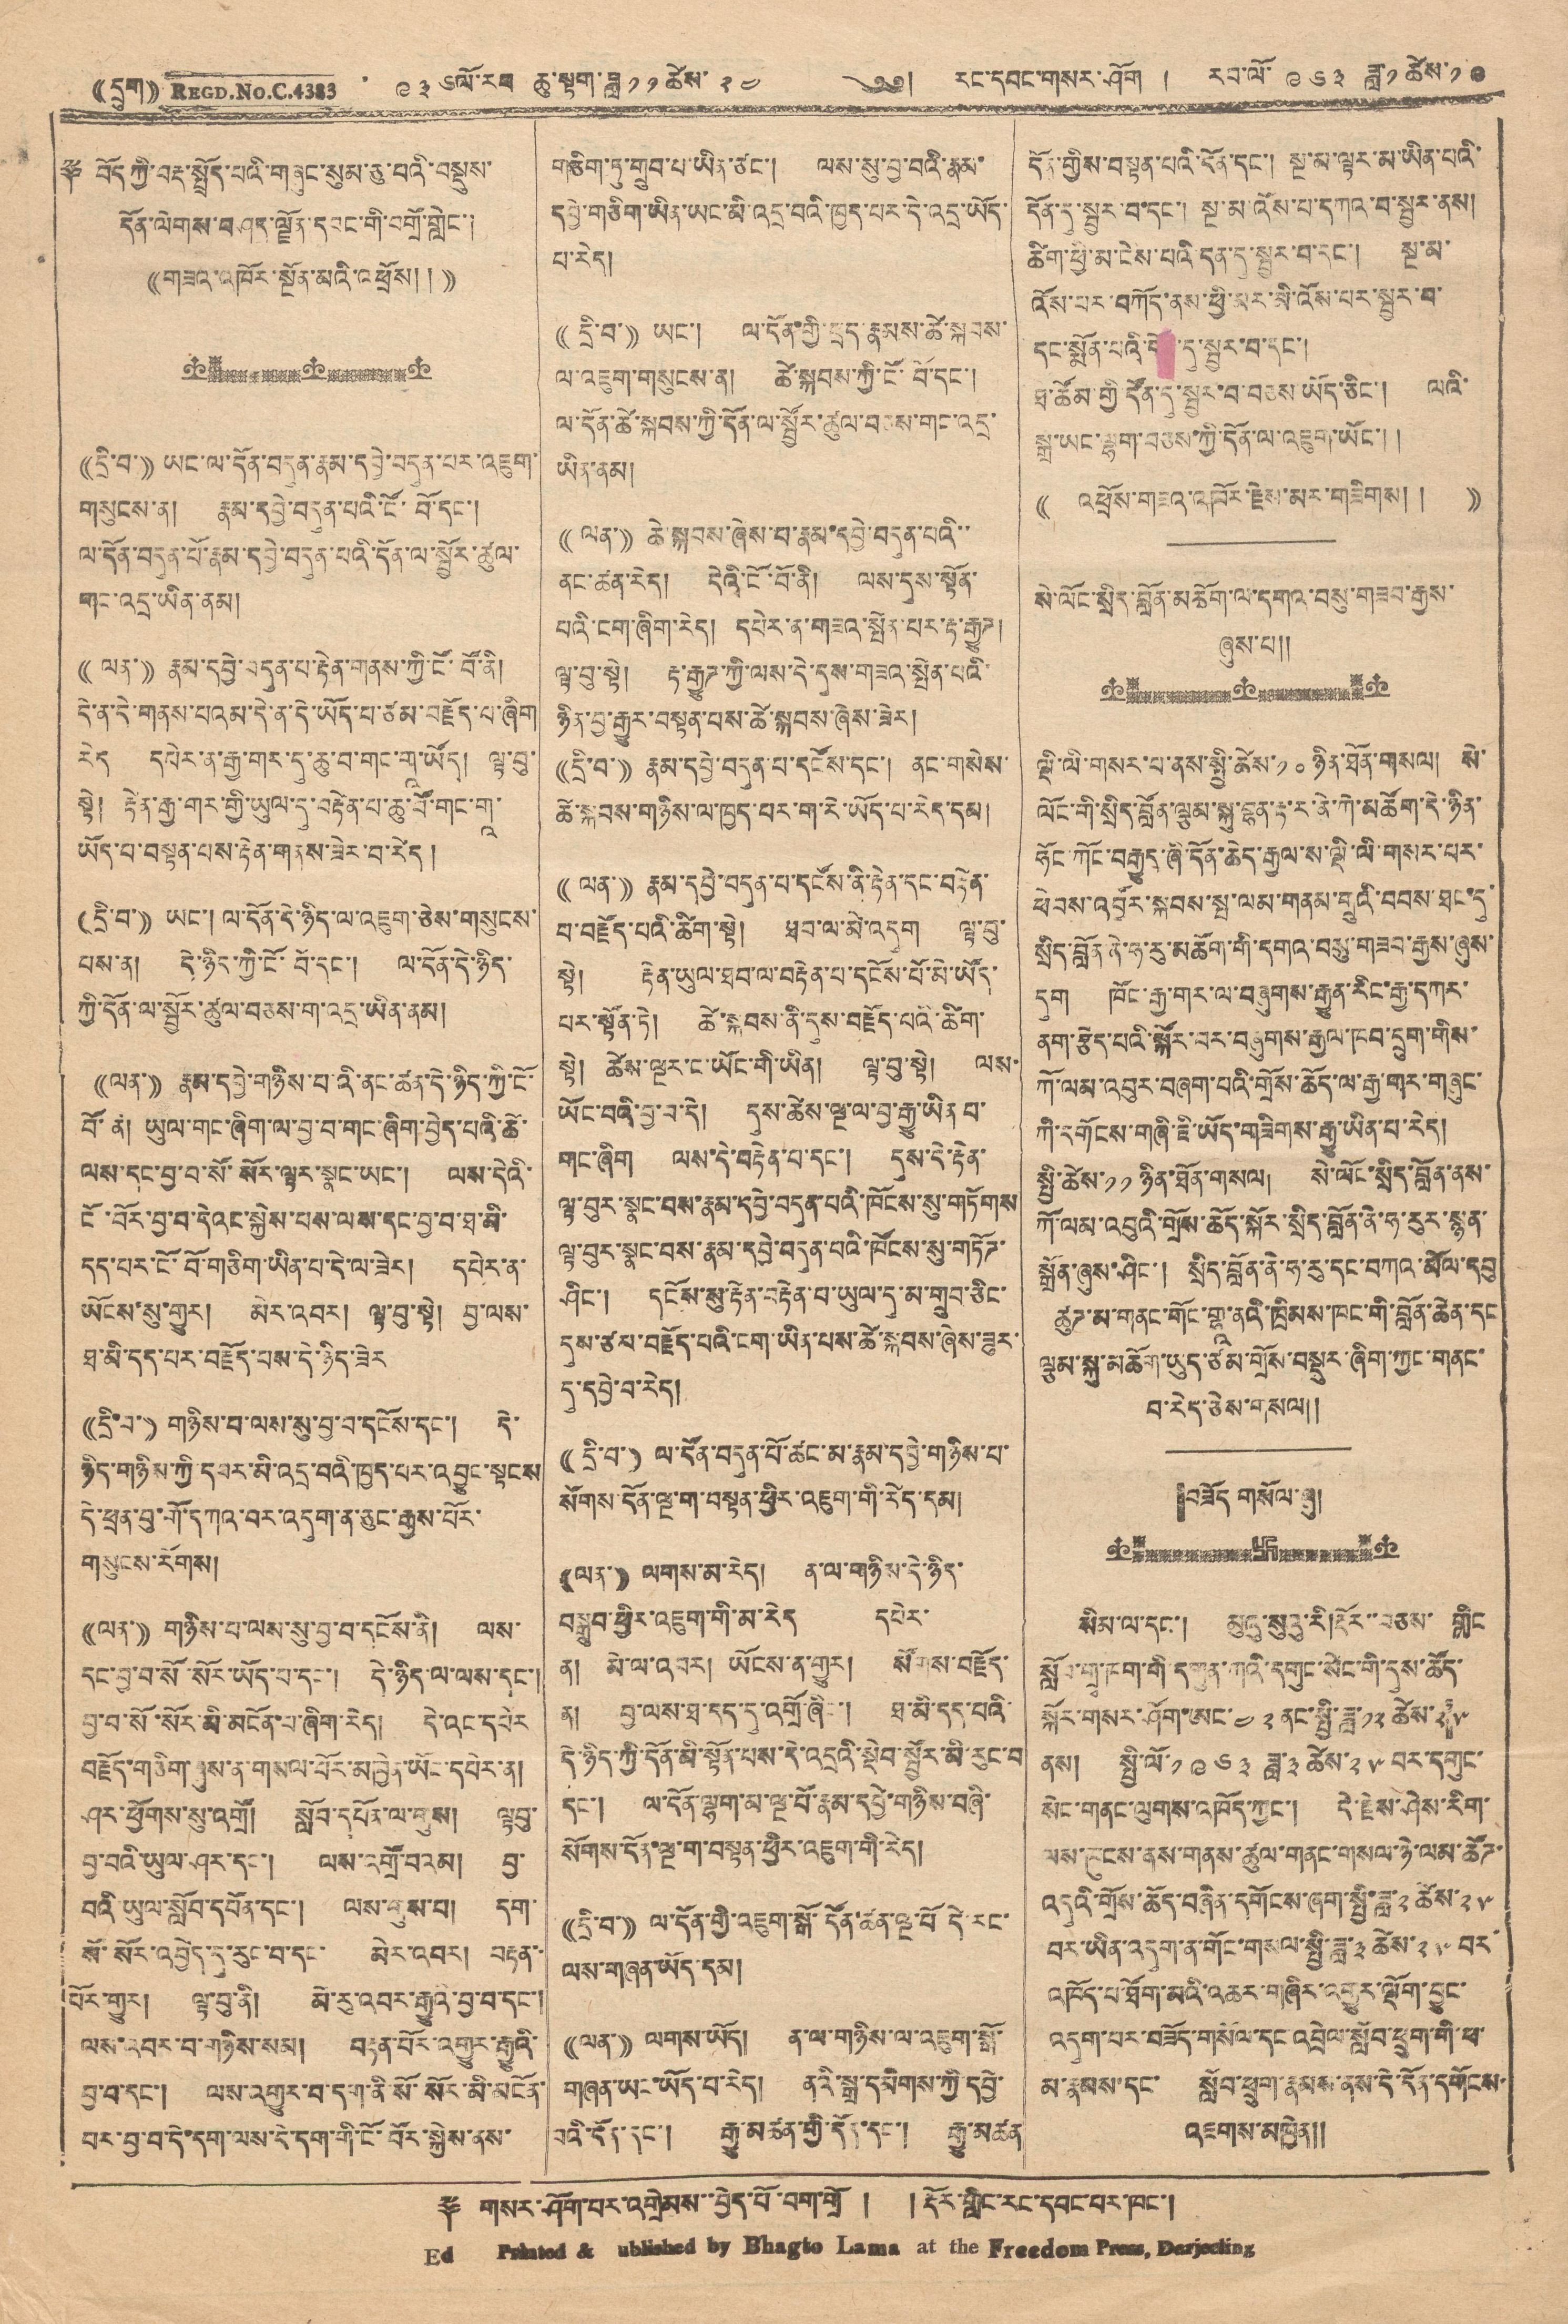((དྲུག)) REGD. NO. C. 4383. ༩༣ ༦ལོ་རབ ཆུ་སྟག་ཟླ་ ༡༡ ཚེས་ ༢༤ ༄༅། རང་དབང་གསར་ཤོག ། རབ་ལོ་ ༩༦༣ ཟླ་ ༡ ཚེས་ ༡༩
༈ བོད ཀྱི་བརྡ་སྤྲོད་པའི་གཞུང་སུམ་ཅུ་པའི་བསྡུས་
དོན་ལེགས་བཤད་ལྗོན་དབང་གི་བགྲོ་གླེང་།
((གཟའ་འཁོར་སྔོན་མའི་འཕྲོས། །))
((དྲི་བ་)) ཡང་ལ་དོན་བདུན་རྣམ་དབྱེ་བདུན་པར་འཇུག་
གསུངས་ན། རྣམ་དབྱེ་བདུན་པའི་ངོ་བོ་དང་།
ལ་དོན་བདུན་པོ་རྣམ་དབྱེ་བདུན་པའི་དོན་ལ་སྦྱོར་ཚུལ་
གང་འདྲ་ཡིན་ནམ།
(( ལན་)) རྣམ་དབྱེ་བདུན་པ་རྟེན་གནས་ཀྱི་ངོ་བོ་ནི།
དེ་ན་དེ་གནས་པའམ་དེ་ནི་དེ་ཡོད་པ་ཙམ་བརྗོད་པ་ཞིག
རེད དཔེར་ན་རྒྱ་གར་དུ་ཆུ་བ་གང་གཱ་ཡོད། ལྟ་བུ་
སྟེ། རྟེན་རྒྱ་གར་གྱི་ཡུལ་དུ་བརྟེན་པ་ཆུ་བོ་གང་གཱ་
ཡོད་པ་བསྟན་པས་རྟེན་གནས་ཟེར་བ་རེད །
((དྲི་བ་)) ཡང་། ལ་དོན་དེ་ཉིད་ལ་འཇུག་ཅེས་གསུངས་
པས་ན། དེ་ཉིད་ཀྱི་ངོ་བོ་དང་། ལ་དོན་དེ་ཉིད་
ཀྱི་དོན་ལ་སྦྱོར་ཚུལ་བཅས་ག་འདྲ་ཡིན་ནམ།
((ལན་)) རྣམ་དབྱེ་གཉིས་པའི་ནང་ཚན་དེ་ཉིད་ཀྱི་ངོ་
བོ་ན། ཡུལ་གང་ཞིག་ལ་བྱ་བ་གང་ཞིག་བྱེད་པའི་ཚེ་
ལས་དང་བྱ་བ་སོ་སོར་ལྟར་སྣང་ཡང་། ལས་དེའི་
ངོ་བོར་བྱ་བ་དེའང་སྐྱེས་པས་ལས་དང་བྱ་བ་ཐ་མི་
དད་པར་ངོ་བོ་གཅིག་ཡིན་དེ་ལ་ཟེར། དཔེར་ན་
ཡོངས་སུ་གྱུར། མེར་འབར། ལྟ་བུ་སྟེ། བྱ་ལས་
ཐ་མི་དད་པར་བརྗོད་པས་དེ་ཉིད་ཟེར
((དྲི་བ་)) གཉིས་པ་ལས་སུ་བྱ་བ་དངོས་དང་། དེ་
ཉིད་གཉིས་ཀྱི་དབར་མི་འདྲ་བའི་ཁྱད་པར་འབྱུང་སྟངས
དེ་ཕྲན་བུ་གོ་དཀའ་བར་འདུག་ན་ཅུང་རྒྱས་པོར་
གསུངས་རོགས།
((ལན་)) གཉིས་པ་ལས་སུ་བྱ་བ་དངོས་ནི། ལས་
དང་བྱ་བ་སོ་སོར་ཡོད་པ་དང་། དེ་ཉིད་ལ་ལས་དང་།
བྱ་བ་སོ་སོར་མི་མངོན་པ་ཞིག་རེད། དེ་འང་དཔེར
བརྗོད་གཅིག་ཞུས་ན་གསལ་པོར་མཁྱེན་ཡོང་དཔེན་ན།
ཤར་ཕྱོགས་སུ་འགྲོ། སློབ་དཔོན་ལ་གུས། ལྟབུ་
བྱ་བའི་ཡུལ་ཤར་དང་། ལས་འགྲོ་བའམ། བྱ་
བའི་ཡུལ་སློབ་དཔོན་དང་། ལས་གུས་པ། དག་
སོ་སོར་འབྱེད་དུ་རུང་བ་དང་ མེར་འབར། བརྟན་་
པོར་གྱུར། ལྟ་བུ་ནི། མེ་རུ་འབར་རྒྱུའི་བྱ་བ་དང་།
ལས་འབར་བ་གཉིས་སམ། བརྟན་པོར་འགྱུར་རྒྱུའི་
བྱ་བ་དང་། ལས་འགྱུར་བ་དག་ནི་སོ་སོར་མི་མངོན་
པར་བྱ་བ་དེ་དག་ལས་དེ་དག་གི་ངོ་བོར་སྐྱེས་ནས་
གཅིག་ཏུ་གྲུབ་པ་ཡིན་ཙང་། ལས་སུ་བྱ་བའི་རྣམ་
དབྱེ་གཅིག་ཡིན་ཡར་མི་འདྲ་བའི་ཁྱད་པར་དེ་འདྲ་ཡོད་
པ་རེད།
((དྲི་བ་)) ཡང་། ལ་དོན་གྱི་དྲན་རྣམས་ཚེ་སྐབས་
ལ་འཇུག་གསུངས་ན། ཚེ་སྐབས་ཀྱི་ངོ་བོ་དང་།
ལ་དོན་ཚེ་སྐབས་ཀྱི་དོན་ལ་སྦྱོར་ཚུལ་བཅས་གང་འདྲ་
ཡིན་ནམ།
(( ལན་)) ཆེ་སྐབས་ཞེས་པ་རྣམ་དབྱེ་བདུན་པའི་་
ནང་ཚན་རེད། དེའི་ངོ་བོ་ནི། ལས་དུས་སྟོན་
པའི་ངག་ཞིག་རེད། དཔེར་ན་གཟའ་སྤེན་པར་རྟ་རྒྱུཊ།
ལྟ་བུ་སྟེ། རྟ་རྒྱུཊ་ཀྱི་ལས་དེ་དུས་གཟའ་སྤེན་པའི་
ཉིན་བྱ་རྒྱུར་བསྟན་པས་ཚེ་སྐབས་ཞེས་ཟེར།
((དྲི་བ་)) རྣམ་དབྱེ་བདུན་པ་དངོས་དང་། ནང་གསེས་
ཚེ་སྐབས་གཉིས་ལ་ཁྱད་པར་ག་རེ་ཡོད་པ་རེད་དམ།
(( ལན་)) རྣམ་དབྱེ་བདུན་པ་དངོས་ནི་རྟེན་དང་བརྟེན་
པ་བརྗོད་པའི་ཚིག་སྟེ། ཐབ་ལ་མེ་འདུག ལྟ་བུ་
སྟེ། རྟེན་ཡུལ་ཐབ་ལ་བརྟེན་པ་དངོས་པོ་མེ་ཡོད་
པར་སྟོན་ཏེ། ཚེ་སྐབས་ནི་དུས་བརྗོད་པའི་ཚིག་
སྟེ། ཚེས་ལྔར་ང་ཡོང་གི་ཡིན། ལྟ་བུ་སྟེ། ལས་
ཡོང་བའི་བྱ་བ་དེ། དུས་ཚེས་ལྔ་ལ་བྱ་རྒྱུ་ཡིན པ་
གང་ཞིག ལས་དེ་བརྟེན་པ་དང་། དུས་དེ་རྟེན་
ལྟ་བུར་སྣང་བས་རྣམ་དབྱེ་བདུན་པའི་ཁོངས་སུ་གཏོགས
ལྟ་བུར་སྣང་བས་རྣམ་དབྱེ་བདུན་པའི་ཁོངས་སུ་གཏོཊ་
ཤིང་། དངོས་སུ་རྟེན་བརྟེན་པ་ཡུལ་དུ་མ་གྲུབ་ཅིང་
དུས་ཙམ་བརྫོད་པའི་ངག་ཡིན་པ་ཚེ་སྐབས་ཞེས་ཟུར་
དུ་དབྱེ་བ་རེད།
(( དྲི་བ་)) ལ་དོན་བདུན་པོ་ཚང་མ་རྣམ་དབྱེ་གཉིས་པ་
སོགས་དོན་ལྔ་ག་བསྟན་ཕྱིར་འཇུག་གི་རེད་དམ།
((ལན་)) ལགས་མ་རེད། ན་ལ་གཉིས་དེ་ཉིད་
བསྒྲུབ་ཕྱིར་འཇུག་གི་མ་རེད དཔེར་
ན། མེ་ལ་འབར། ཡོངས་ན་གྱུར། སོགས་བརྗོད་
ན། བྱ་ལས་ཐ་དད་དུ་འགྲོ་ཞིང་། ཐ་མི་དད་པའི་
དེ་ཉིད་ཀྱི་དོན་མི་སྟོན་པས་དེ་འདྲའི་སྡེབ་སྦྱོར་མི་རུང་བ
དང་། ལ་དོན་ལྷག་མ་ལྔ་པོ་རྣམ་དབྱེ་གཉིས་བཞི་
སོགས་དོན་ལྔ་ག་བསྟན་ཕྱིར་འཇུག་གི་རེད།
((དྲི་བ་)) ལ་དོན་གྱི་འཇུག་སྒོ་དོན་ཚན་ལྔ་པོ དེ་རང་
ལས་གཞན་ཡོད་དམ།
((ལན་)) ལགས་ཡོད། ན་ལ་གཉིས་ལ་འཇུག་སྒོ་
གཞན་ཡང་ཡོད་པ་རེད། ནའི་སྒྲ་དམིགས་ཀྱི་དབྱེ་
བའི་དོན་དང་། རྒྱུ་མཚན་གྱི་དོན་དང་། རྒྱུ་མཚན
དོན་གྱིས་བསྟན་པའི་དོན་དང་། སྔ་མ་ལྟར་མ་ཡིན་པའི་
དོན་དུ་སྦྱར་བ་དང་། སྔ་མ་འོས་པ་དཀའ་བ་སྦྱར་ནས།
ཚིག་ཕྱི་མ་ངེས་པའི་དན་དུ་སྦྱར་བ་དང་། སྔ་མ་
འོས་པར་བཀོད་ནས་ཕྱི་མར་མི་འོས་པར་སྦྱར་བ་
དང་སྨོས་པའི་དོན་དུ་སྦྱར་བ་དང་།
ཐ་ཚོམ་གྱི་དོན་དུ་སྦྱར་བ་བཅས་ཡོད་ཅིང་། ལའི་
སྒྲ་ཡང་ལྷག་བཅས་ཀྱི་དོན་ལ་འཇུག་ཡོང་། །
(( འཕྲོས་གཟའ་འཁོར་རྗེས་མར་གཟིགས། ། ))
སེ་ལོང་སྲིད་བློན་མཆོག་ལ་དགའ་བསུ་གཟབ་རྒྱས་
ཞུས་པ༎
ལྡི་ལི་གསར་པ་ནས་སྤྱི་ཚེས་ ༡༠ ཉིན་ཐོན་གསལ། སེ་
ལོང་གི་སྲིད་བློན་ལྕམ་སྐུ་བྷན་རྟ་ར་ནེ་ཀེ་མཆོག་དེ་ཉིན་
ཧོང་ཀོང་བརྒྱུད་ཞི་དོན་ཆེད་རྒྱལ་ས་ལྡི་ལི་གསར་པར་
ཕེབས་འབྱོར་སྐབས་སྤ་བས་ལམ་གནམ་གྲུའི་བབས་ཐང་དུ་
སྲིད་བློན་ནེ་ཧ་རུ་མཆོག་གི་དགའ་བསུ་གཟབ་རྒྱས་ཞུས་
དུག ཁོང་རྒྱ་གར་ལ་བཞུགས་རྒྱུན་རིང་རྒྱ་དཀར་
ནག་རྩེད་པའི་སྐོར་བར་བཞུགས་རྒྱལ་ཁབ་དྲུག་གིས་
ཀོ་ལམ་འབུར་བཞག་པའི་གྲོས་ཆོད་ལ་རྒྱ་གར་གཞུང་
ཀི་དགོངས་གཞི་ཇི་ཡོད་གཟིགས་རྒྱུ་ཡིན་པ་རེད།
སྤྱི་ཚེས་ ༡༡ ཉིན་ཐོན་གསལ། སེ་ལོང་སྲིད་བློན་ནས་
ཀོ་ལམ་འབུའི་གྲོས་ཆོད་སྐོར་སྲིད་བློན་ནེ་ཧ་རུང་སྙན་
སྒྲོན་ཞུས་ཤིང་། སྲིད་བློན་ནེ་ཧ་རུ་དང་བཀའ་མོལ་དབུ
ཚུཊ་མ་གནང་གོང་གྷཱ་ནའི་ཁྲིམས་ཁང་གི་བློན་ཆེན་དང
ལྕམ་སྐུ་མཆོག་ཡུད་ཙམ་གྲོས་བསྡུར་ཞིག་ཀྱང་གནང་
བ་རེད་ཅེས་གསལ།།
བཟོད གསོལ་ཞུ།
སིམ་ལ་དང་། མུའུ་སུའུ་རི། རྡོར་བཅས་ གླིང
སློབ་གྲྭ་ཁག་གི་དགུན་ཀའི་དགུང་སེང་གི་དུས་ཚོད་
སྐོར་གསར་ཤོག་ཨང་ ༤༢ ནང་སྤྱི་ཟླ་༡༢ ཚེས་ ༢༥
ནས། སྤྱི་ལོ ༡༩༦༣ ཟླ་༣ ཚེས་ ༢༥ བར་དགུང་
སེང་གནང་ལུགས་འཁོད་ཀྱང་། དེ་རྗེས་ཤེས་རིག་
ལས་ཁུངས་ནས་གནས་ཚུལ་གནང་གསལ་ཉེ་ལམ་ཚོཊ་
འདུའི་གྲོས་ཆོད་བཞིན་དགེངས་ཞག་སྤྱི་ཟླ་༢ ཚེས་༢༥
བར་ཡིན་འདུག་ན་གོང་གསལ་སྤྱི་ཟླ་༣ ཚེས་༢༥ བར་
འཁོད་པ་ཐོག་མའི་འཆར་གཞིར་འགྱུར་ལྡོག་བྱུང་
འདུག་པར་བཟོད་གསོལ་དང་འབྲེལ་སློབ་ཕྲུག་གི་ཕ་
མ་རྣམས་དང་ སློབ་ཕྲུག་རྣམས་ནས་དེ་དོན་དགོངས་
འཇགས་མཁྱེན།
༈ གསར་ཤོག་པར་འགྲེམས་་བྱེད་པོ་བག་གྲོ ། །རྡོར་གླིང་རང་དབང་པར་ཁང་།
Ed Printed & Published by Bhagto Lama at the Freedom Press, Derjeeling
